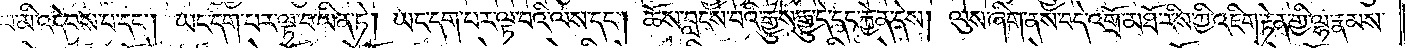པ་མི་འདེབས་པ་དང༌། ཡང་དག་པར་ལྟ་བ་ཡིན་ཏེ། ཡང་དག་པར་ལྟ་བའི་ལས་དང༌། ཆོས་བླངས་པའི་རྒྱུས་རྒྱུ་དེ་དང་རྐྱེན་དེས། ལུས་ཞིག་ནས་བདེ་འགྲོ་མཐོ་རིས་ཀྱི་འཇིག་རྟེན་གྱི་ལྷ་རྣམས་
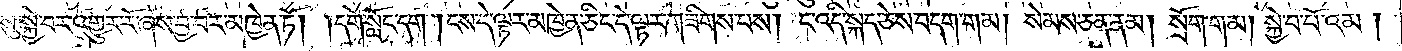སུ་སྐྱེ་བར་འགྱུར་རོ་ཞེས་བྱ་བ་མཁྱེན་ཏོ། །དགེ་སློང་དག །ངས་དེ་ལྟར་མཁྱེན་ཅིང་དེ་ལྟར་གཟིགས་པས། ང་འདི་སྐད་ཅེས་བདག་གམ། སེམས་ཅན་ནམ། སྲོག་གམ། སྐྱེ་བ་པོའམ་
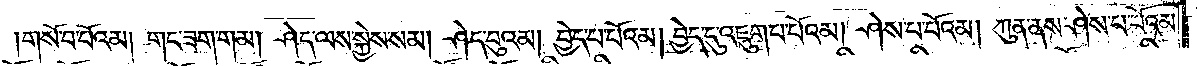གསོ་བ་པོའམ། གང་ཟག་གམ། ཤེད་ལས་སྐྱེས་སམ། ཤེད་བུའམ། བྱེད་པ་པོའམ། བྱེད་དུ་འཇུག་པ་པོའམ། ཤེས་པ་པོའམ། ཀུན་ནས་ཤེས་པ་པོའམ།
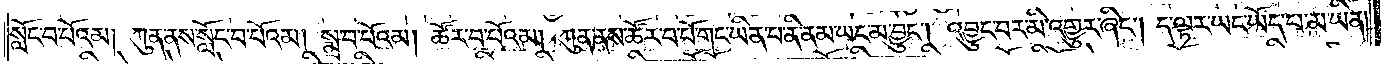སློང་བ་པོའམ། ཀུན་ནས་སློང་བ་པོའམ། སྨྲ་བ་པོའམ། ཚོར་བ་པོའམ། ཀུན་ནས་ཚོར་བ་པོ་གང་ཡིན་པ་ནི་ནམ་ཡང་མ་བྱུང༌། འབྱུང་བར་མི་འགྱུར་ཞིང༌། ད་ལྟར་ཡང་ཡོད་པ་མ་ཡིན།
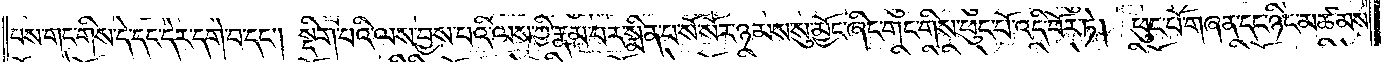པས་གང་གིས་དེ་དང་དེར་དགེ་བ་དང༌། སྡིག་པའི་ལས་བྱས་པའི་ལས་ཀྱི་རྣམ་པར་སྨིན་པ་སོ་སོར་ཉམས་སུ་མྱོང་ཞིང་གང་གིས་ཕུང་པོ་འདི་བོར་ཏེ། ཕུང་པོ་གཞན་དང་ཉིང་མཚམས་
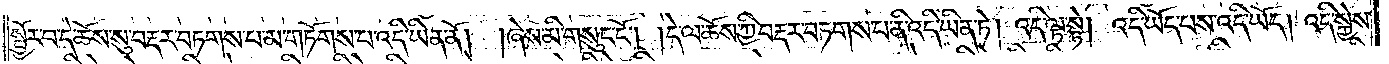སྦྱོར་བ་དེ་ཆོས་སུ་བརྡར་བཏགས་པ་མ་གཏོགས་པ་འདི་ཡིན་ནོ། །ཞེས་མི་གསུང་ངོ༌། །དེ་ལ་ཆོས་ཀྱི་བརྡར་བཏགས་པ་ནི་འདི་ཡིན་ཏེ། འདི་ལྟ་སྟེ། འདི་ཡོད་པས་འདི་ཡོད། འདི་སྐྱེས་
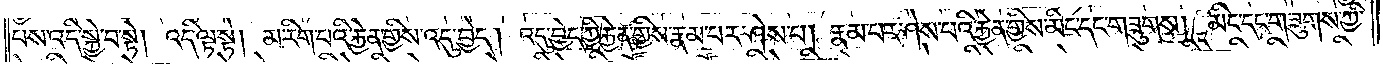པས་འདི་སྐྱེ་བ་སྟེ། འདི་ལྟ་སྟེ། མ་རིག་པའི་རྐྱེན་གྱིས་འདུ་བྱེད། འདུ་བྱེད་ཀྱི་རྐྱེན་གྱིས་རྣམ་པར་ཤེས་པ། རྣམ་པར་ཤེས་པའི་རྐྱེན་གྱིས་མིང་དང་གཟུགས། མིང་དང་གཟུགས་ཀྱི་
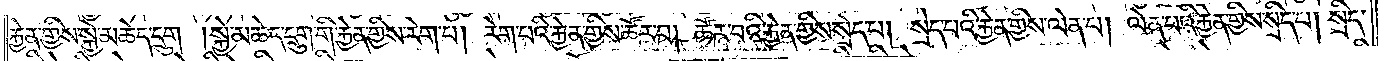རྐྱེན་གྱིས་སྐྱེ་མཆེད་དྲུག །སྐྱེ་མཆེད་དྲུག་གི་རྐྱེན་གྱིས་རེག་པ། རེག་པའི་རྐྱེན་གྱིས་ཚོར་བ། ཚོར་བའི་རྐྱེན་གྱིས་སྲེད་པ། སྲེད་པའི་རྐྱེན་གྱིས་ལེན་པ། ལེན་པའི་རྐྱེན་གྱིས་སྲིད་པ། སྲིད་
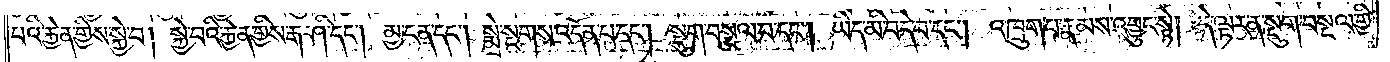པའི་རྐྱེན་གྱིས་སྐྱེ་བ། སྐྱེ་བའི་རྐྱེན་གྱིས་རྒ་ཤི་དང༌། མྱ་ངན་དང༌། སྨྲེ་སྔགས་འདོན་པ་དང༌། སྡུག་བསྔལ་བ་དང༌། ཡིད་མི་བདེ་བ་དང༌། འཁྲུག་པ་རྣམས་འབྱུང་སྟེ། དེ་ལྟར་ན་སྡུག་བསྔལ་གྱི་
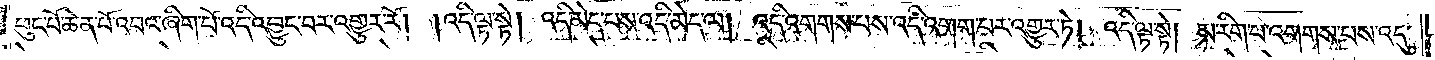ཕུང་པོ་ཆེན་པོ་འབའ་ཞིག་པོ་འདི་འབྱུང་བར་འགྱུར་རོ། །འདི་ལྟ་སྟེ། འདི་མེད་པས་འདི་མེད་ལ། འདི་འགགས་པས་འདི་འགག་པར་འགྱུར་ཏེ། འདི་ལྟ་སྟེ། མ་རིག་པ་འགགས་པས་འདུ་
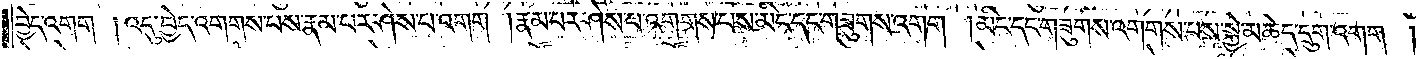བྱེད་འགག །འདུ་བྱེད་འགགས་པས་རྣམ་པར་ཤེས་པ་འགག །རྣམ་པར་ཤེས་པ་འགགས་པས་མིང་དང་གཟུགས་འགག །མིང་དང་གཟུགས་འགགས་པས་སྐྱེ་མཆེད་དྲུག་འགག །
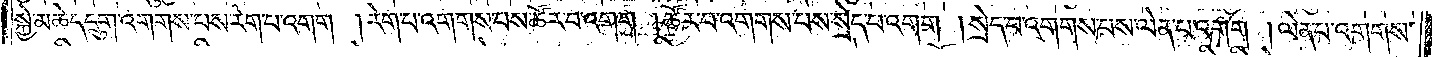སྐྱེ་མཆེད་དྲུག་འགགས་པས་རེག་པ་འགག །རེག་པ་འགགས་པས་ཚོར་བ་འགག །ཚོར་བ་འགགས་པས་སྲེད་པ་འགག །སྲེད་པ་འགགས་པས་ལེན་པ་འགག །ལེན་པ་འགགས་
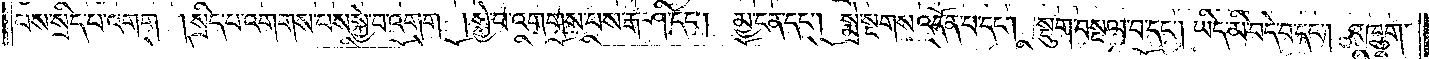པས་སྲིད་པ་འགག །སྲིད་པ་འགགས་པས་སྐྱེ་བ་འགག །སྐྱེ་བ་འགགས་པས་རྒ་ཤི་དང༌། མྱ་ངན་དང༌། སྨྲེ་སྔགས་འདོན་པ་དང༌། སྡུག་བསྔལ་བ་དང༌། ཡིད་མི་བདེ་བ་དང༌། འཁྲུག་
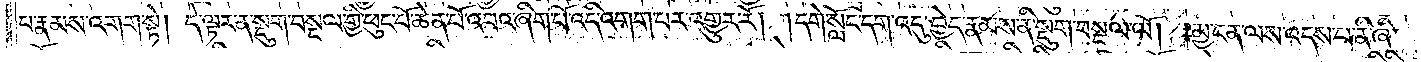པ་རྣམས་འགག་སྟེ། དེ་ལྟར་ན་སྡུག་བསྔལ་གྱི་ཕུང་པོ་ཆེན་པོ་འབའ་ཞིག་པོ་འདི་འགག་པར་འགྱུར་རོ། །དགེ་སློང་དག་འདུ་བྱེད་རྣམས་ནི་སྡུག་བསྔལ་ལོ། །མྱ་ངན་ལས་འདས་པ་ནི་ཞི་
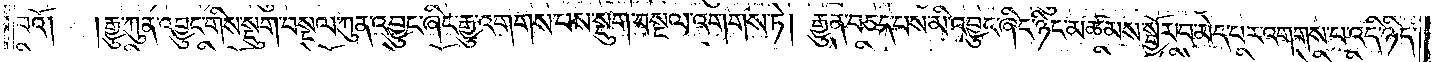བའོ།<gap>།རྒྱུ་ཀུན་འབྱུང་གིས་སྡུག་བསྔལ་ཀུན་འབྱུང་ཞིང་རྒྱུ་འགགས་པས་སྡུག་བསྔལ་འགགས་ཏེ། རྒྱུན་བཅད་པས་མི་འབྱུང་ཞིང་ཉིང་མཚམས་སྦྱོར་བ་མེད་པར་འགགས་པ་འདི་ཉིད་
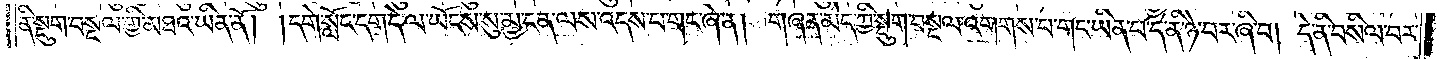ནི་སྡུག་བསྔལ་གྱི་མཐའ་ཡིན་ནོ། །དགེ་སློང་དག་དེ་ལ་ཡོངས་སུ་མྱ་ངན་ལས་འདས་པ་གང་ཞེ་ན། གཞན་མེད་ཀྱི་སྡུག་བསྔལ་འགགས་པ་གང་ཡིན་པ་དེ་ནི་ཉེ་བར་ཞི་བ། དེ་ནི་བསིལ་བར་
